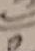༡
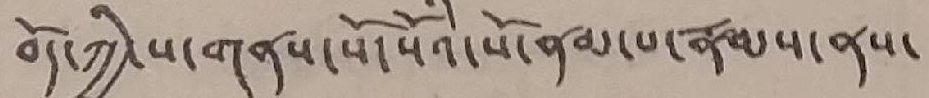བོད་ཀྱི་ས་གནས་སོ་སོའི་སོ་ནམ་པ་རྣམས་ནས་
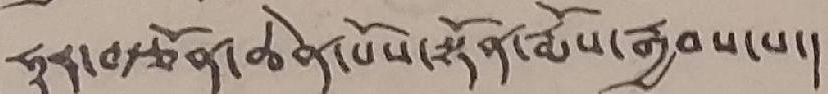ཧུར་བརྩོན་ཆེན་པོས་སྟོན་རྨོས་རྒྱབས་པ་།
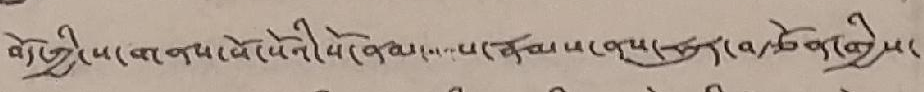བོད་ཀྱི་ས་གནས་སོ་སོའི་སོ་ནམ་་་པ་རྣམས་ནས་ཧུར་བརྩོན་གྱིས་
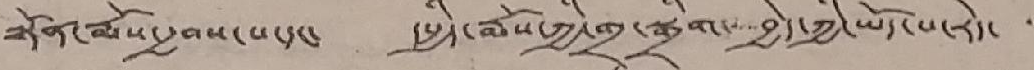སྟོན་རྨོས་རྒྱབས་པ་དང་ དཔྱིད་རྨོས་ཀྱི་གྲྭ་སྒྲིགས་བྱེད་ཀྱི་ཡོད་པ་རེད་ ་་
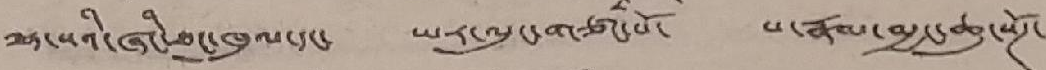ལྷ་སའི་ཞིང་ཐང་ཁུལ་དང་ ཡར་ལུང་གཙང་པོ་ པ་རྣམ་མྱང་ཆུ་སོཊ་
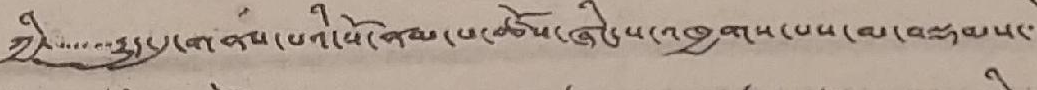ཀྱི་་་་་་་རྒྱུད་དུ་གནས་པའི་སོ་ནམ་པ་ཚོས་ཞིང་ས་འཁྱགས་པས་མ་བལྡམས་་་
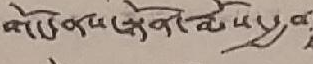གོང་ནས་སྟོན་རྨོས་རྒྱག
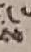ས
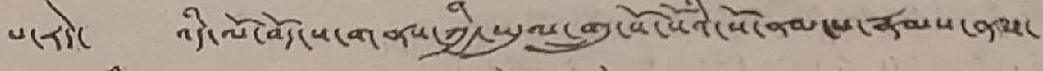པ་རེད་ འདི་ལོ་བོད་ས་གནས་ཀྱི་ཡུལ་གྲུ་སོ་སོའི་སོ་ནམ་པ་རྣམས་ནས་
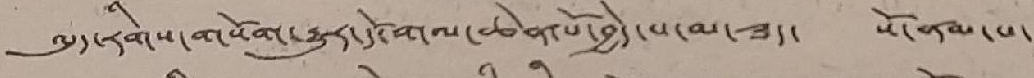ལུད་རིགས་གསོག་རྒྱུར་དོ་གལ་ཆེན་པོ་བྱེད་པ་མ་ཟད་ སོ་ནམ་པ་
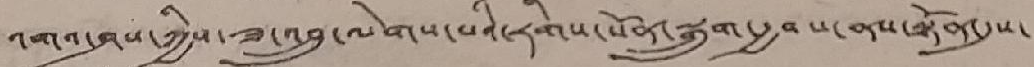འགའ་ཤས་ཀྱིས་ཟ་འབྲུ་ལེགས་པའི་རིགས་སོན་སྒྲུག་རྒྱབ་པ་ནས་སྟོན་དུས་
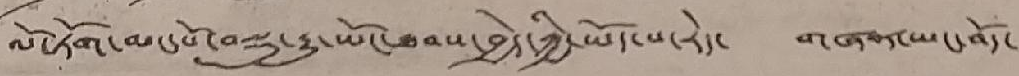ལོ་ཏོག་མང་པོ་བསྡུ་རྒྱུ་ཡོང་ཐབས་བྱེད་ཀྱི་ཡོད་པ་རེད་ གཞན་ཡང་བོད་
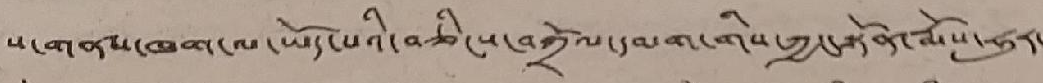ས་གནས་ཁག་ལ་ཡོད་པའི་བཅིངས་བགྲོལ་དམག་གིས་ཀྱང་སྟོན་རྨོས་ཧུར་
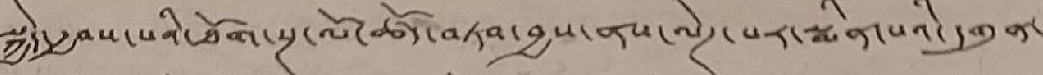སྐྱེད་རྒྱབས་པའི་ཐོག་སྔ་ལོ་ཚོད་བཏབ་བྱས་ནས་ལེཊ་པར་སྨིན་པའི་དགུན་
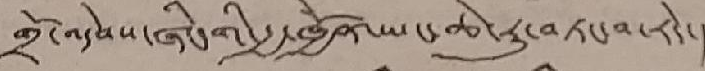གྲོ་འདེབས་ཞིང་གི་རྒྱ་ཁྱོན་ཡང་ཆེ་རུ་བཏང་བ་རེད་།
